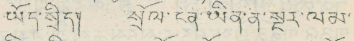ཡོད་སྲིད། སྲོལ་ངན་ཡིན་ན་སྔར་ལམ་
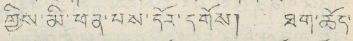གྱིས་མི་ཕན་པས་དོར་དགོས། ཐག་ཆོད་
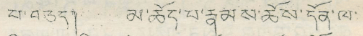པ་བཅད། མ་ཆོད་པ་རྣམས་ཆོས་དོན་ལ་
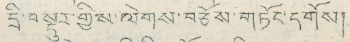དྲི་བསྡར་གྱིས་ལེགས་བཅེས་གཏོང་དགོས།
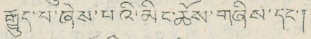རྒྱུད་པ་ཞེས་པའི་མིང་ཆོས་གཞིས་དང་།
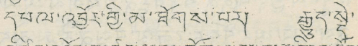དཔལ་འབྱོར་གྱི་མ་ཐོགས་པར། རྒྱུད་སྤྱེ་
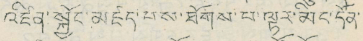འཛིན་སྐྱོང་མཛད་པས་ཐོགས་པ་ལྟར་མིང་དོན་
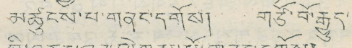མཚུངས་པ་གནང་དགོས། གཙོ་བོ་རྒྱུད་
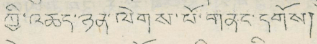ཀྱི་འཆད་ཉན་ལེགས་པོ་གནང་དགོས།
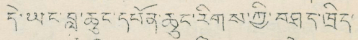དེ་ཡང་བླ་ཆུང་དཔོན་ཆུང་རིགས་ཀྱི་བཤད་ཁྲིད་
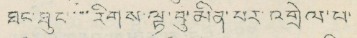ཐང་ཐུང་་རིགས་ལྟ་བུ་མིན་པར་འགྲེལ་པ་
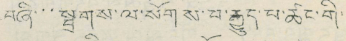བཞི་་་སྦྲགས་ལ་སོགས་པ་རྒྱུད་པ་ཚང་གི་
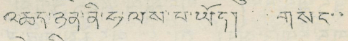འཆད་ཉིན་ནི་ཧ་ལས་པ་ཡོད། གསང་་
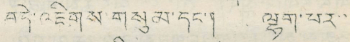བདེ་འཇིགས་གསུམ་དང་། ལྷག་པར་་
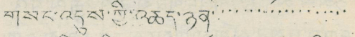གསང་འདུས་ཀྱི་འཆད་ཉན་་་་་་་་་་་་་་་་་
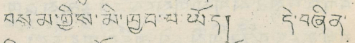བསམ་ཀྱིས་མི་ཁྱབ་པ་ཡོད། དེ་བཞིན་
